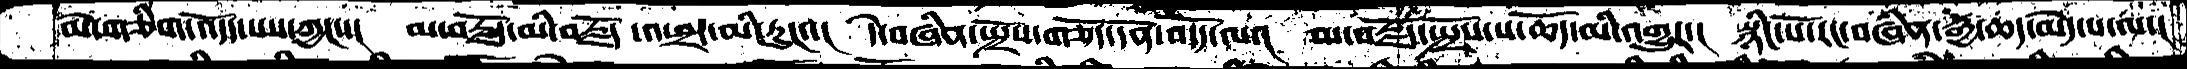མེ་གཅིག་འདོད་པས་ཀྱང་།  མ་བརྗོད་མི་བརྗོད་འཕྲང་མི་རུང་་།  དེ་བཞིན་སྤྲོས་གཅོད་དོན་འདོད་ལ་།  མ་བརྗོད་སྤྲོས་པ་ཆོད་མི་འགྱུར་།  སྙིང་པོ་རང་བཞིན་རྒྱ་ཆད་མེད་པ་ལ་།
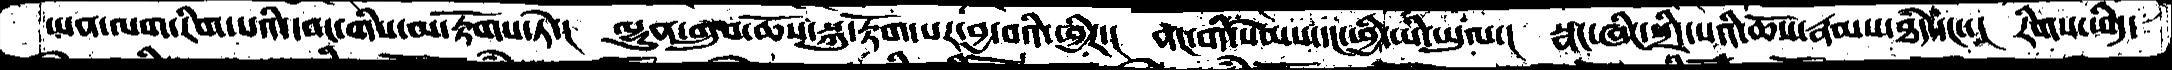ཡན་ལག་རིག་པའི་དབང་གིས་མ་རྟོགས་ཏེ་།  ལྷུན་གྲུབ་ཆོས་སྐུ་རྟོག་པར་བྱ་བའི་ཕྱིར་།  ནང་གི་སེམས་དང་ཕྱི་ཡི་ཡུལ་།  སྣང་ཞིང་སྲིད་པའི་ཆོས་རྣམས་ཐཾད་དང་་།  རིགས་ཡིད་
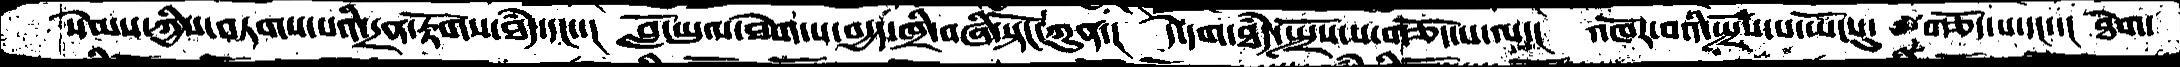སེམས་ཀྱི་བཏགས་པའི་དྲན་རྟོགས་ཐཾད་དང་་།  བློ་ཡུལ་ཐེག་པ་བརྒྱད་ཁྲི་བཞི་སྟོང་ཀུན་།  དེ་དག་ཐཾད་སྤྲོས་པ་གཅོད་པ་ལ་།  འཁོར་བའི་སྤྲོས་པ་ཡོངསུ་   གཅོད་པ་དང་་།  ཐེག་
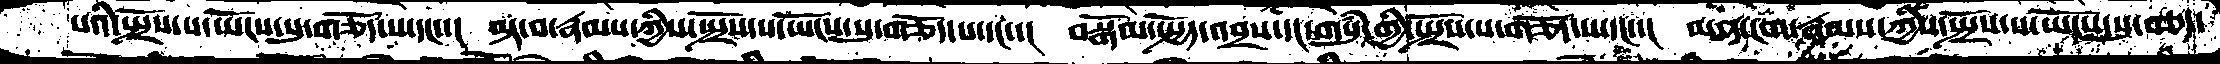པའི་སྤྲོས་པ་ཡོང་སུ་གཅོད་པ་དང་་།  ལྟ་བ་རྣམས་ཀྱིས་སྤྲོས་པ་ཡོངས་སུ་གཅོད་པ་དང་་།  བསྒོམ་སྤྱོད་འབྲས་དང་གསུཾ་གྱི་སྤྲོས་པ་གཅོད་པ་དང་་།  མན་ངག་རྣམས་ཀྱིས་སྤྲོས་པ་ཡོངས་སུ་བཅད་
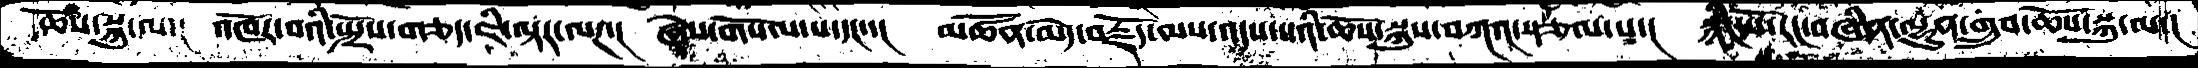ཆོས་སྐུ་ལ་།  འཁོར་བའི་སྤྲོས་བཅད་ཇི་ལྟར་ལཌ་།  ཞེས་གསོལ་པ་ད་་།  མཚོན་མེད་བརྗོད་ལས་འདས་པའི་ཆོས་སྐུས་བཀའ་སྩལ་པ་།  སྙིང་པོ་རང་བཞིན་ལྷུན་གྲུབ་ཆོས་སྐུ་ལ་།
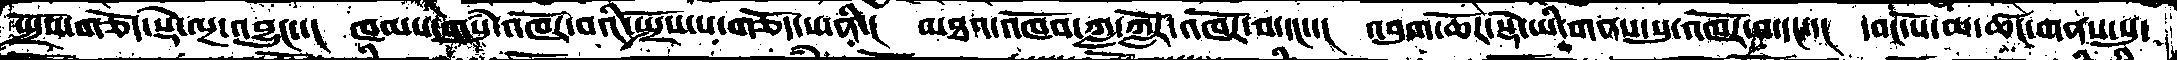སྤྲོས་གཅོད་སྡེ་ལྔ་འབྱུང་་།  ཁམས་གསུཾ་འཁོར་བའི་སྤྲོས་པ་གཅོད་པ་ནི་།  མཐའ་འཁོབ་ཀླ་ཀློར་འཁོར་བ་དང་་།  འབུག་ཆོར་སྡེ་ཡི་གནས་སུ་འཁོར་བ་དང་་།  དབང་པོ་མ་ཚང་གནས་སུ་
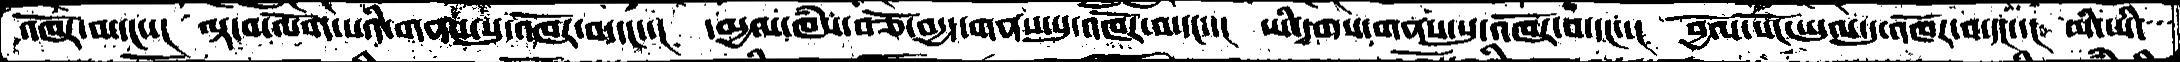འཁོར་བ་དང་་།  ལྟ་བ་ལོག་པའི་གནས་སུ་འཁོར་བ་དང་་།  དམྱལ་ཁཾས་བཅོ་བདྱད་གནས་སུ་འཁོར་བ་དང་་།  ཡི་དྭགས་གནས་སུ་འཁོར་བ་དང་་།  བྱོལ་སོང་ཡུལ་དུ་འཁོར་བ་དང་་།  མི་ཡི་
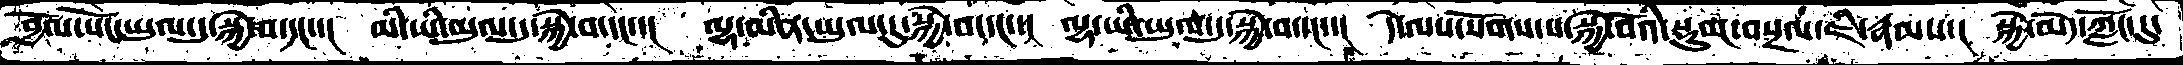བྱོལ་སོང་ཡུལ་དུ་སྐྱེ་བ་དང་་།  མི་ཡི་ཡུལ་དུ་སྐྱེ་བ་དང་་།  ལྷ་མིན་ཡུལ་དུ་སྐྱེ་བ་དང་་། ལྷ་ཡི་ཡུལ་དུ་སྐྱེ་བ་དང་་།   དེ་ལས་སོགས་པ་སྐྱེ་བོའི་སྡུག་བསྔལ་ཇི་རྣམས་།  སྐྱེ་མེད་ཀློང་དུ་
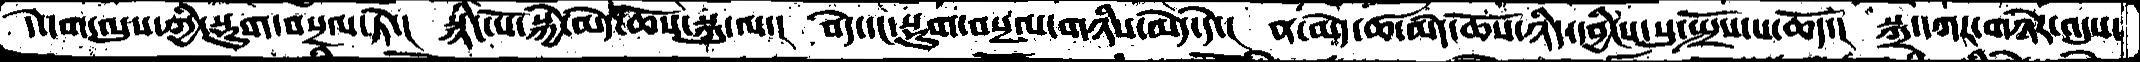དེ་དག་ལུས་གྱི་སྡུག་བསྔལ་ཏེ་།  སྙིང་པོ་སྐྱེ་མེད་ཆོས་སྐུ་ལ་།  བདེ་དང་སྡུག་བསྔལ་གཉིས་མེད་དེ་།  ན་མེད་ཚ་མེད་ཆོས་ཉིད་དབྱིངས་སུ་སྤྲོས་པ་ཆོད་། སྐྲ་དཀར་གཉེར་འདུས་
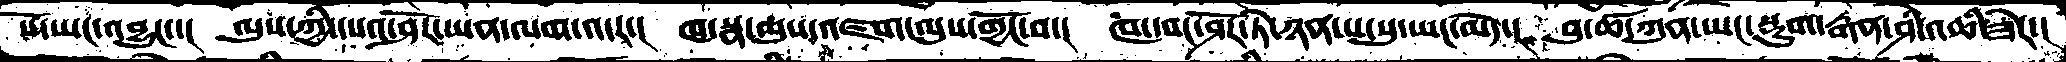པོ་ཡང་འབྱུང་་།  ལུས་ཀྱི་དསའ་ཤོར་ཡན་ལག་འདར་།  ཁ་སྣ་ཆུས་འཛག་ལུས་གྱོང་བ་།  ཁ་དབང་ཤོར་ཏེ་ཉན་པ་སུ་ཡང་མེད་།  བུ་ཚ་ཀུན་ཡང་སྡུག་རྒན་ཤི་འཆི་ཟེར་།
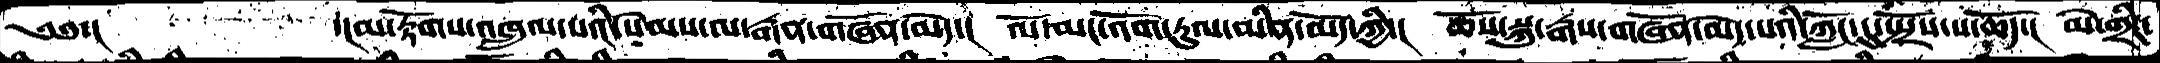༄༅་།        ་།མ་རྟོགས་འཁྲུལ་པའི་སེམས་ལ་རྒན་གཞོན་མེད་།  ལོ་མང་འོག་ཏུལ་མིན་མོད་ཀྱི་།  ཆོས་སྐུ་རྒས་གཞོན་མེད་པའི་ཀློང་དུ་སྤྲོས་པ་ཆོད་།  མེ་གྲིར་
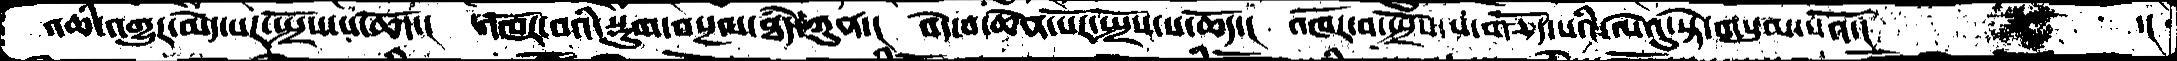འཆི་འགྱུར་མེད་པར་སྤྲོས་པ་ཆོད་།  འཁོར་བའི་སྡུག་བསྔལ་ཐཾད་ཀུན་།  བདེ་བ་ཆེན་པོར་སྤྲོས་པ་ཆོད་།  འཁོར་བ་སྤྲོས་པ་གཅོད་པའི་ལེའུ་སྟེ་གསུམ་པའོ་།       ་།
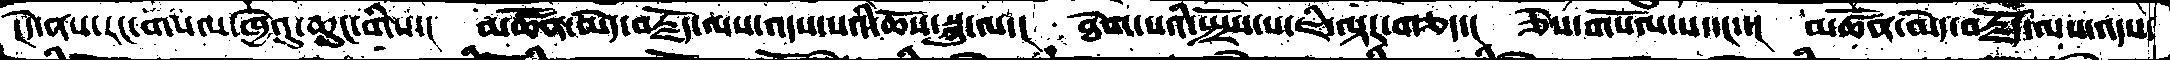།དེ་ནས་རང་གསལ་ཁྱེའུ་ཆུང་གིས་།  མཚོན་མེད་བརྗོད་ལས་འདས་པའི་ཆོས་སྐུ་ལ་།  ཐེག་པའི་སྤྲོས་པ་ཇི་ལྟར་གཅད་།  ཅེས་གསོལ་པ་དང་་།  མཚོན་མེད་བརྗོད་ལས་འདས་
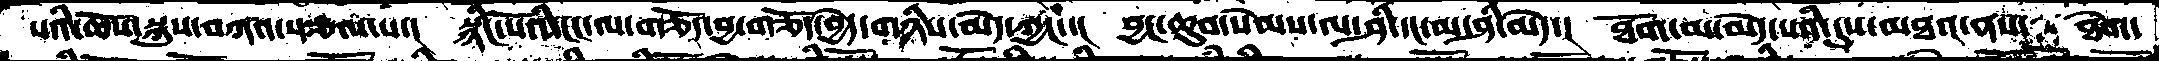པའི་ཆོས་སྐུས་བཀའ་སྩལ་པ་།  སྙིང་པོའི་ངང་ལ་གཅོད་བྱ་གཅོད་བྱེད་གཉིས་མེད་ཀྱང་་།  བྱང་ཆུབ་སེམས་ལ་ཤི་དང་མ་ཤི་མེད་།  ཐོག་མ་མེད་པའི་དུས་མཐའ་ནས་།  ཐེག་
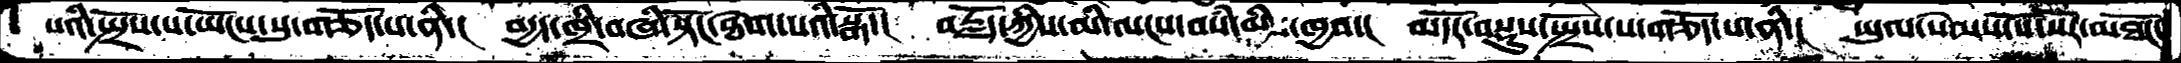པའི་སྤྲོས་པ་ཡོངས་སུ་གཅོད་པ་ནི་།  བདྱད་ཁྲི་བཞི་སྟོང་ཐེག་པའི་སྒོ་།   བརྗོད་ཀྱིས་མི་ལངས་བསཾ་མི་ཁྱབ་།  མདོར་བསྡུས་སྤྲོས་པ་གཅོད་པ་ནི་།  ཡུལ་སེམས་སོ་སོར་མཐོང་
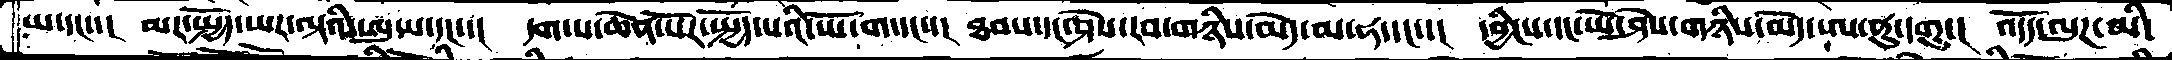ཡ་དང་་།  མར་སྤྱོད་ཡར་ལྟའི་ཨུ་པ་དང་་།  དག་པ་ཆེན་པོར་སྤྱོད་པའི་ཡོ་ག་དང་་།  ཐབས་དང་ཤེས་རབ་གཉིས་མེད་མ་ཧ་དང་་།  དབྱིངས་དང་ཡེ་ཤེས་གཉིས་མེད་ཨ་ནུ་དགུ་།  འོདད་ལུཌ་མི་
